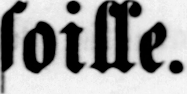soille.
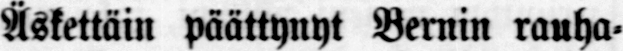Äskettäin päättynyt Bernin rauha-
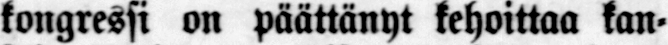kongressi on päättänyt kehoittaa kan-
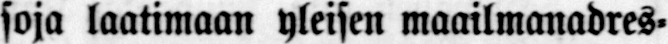soja laatimaan yleisen maailmanadres-
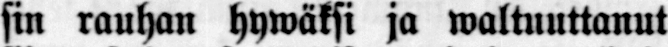sin rauhan hywäksi ja waltuuttanut
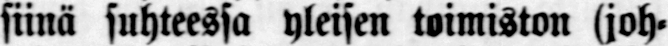siinä suhteessa yleisen toimiston (joh-
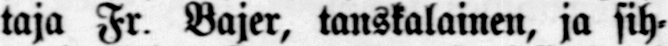taja Fr. Bajer, tanskalainen, ja sih-
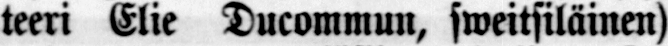teeri Elie Ducommun, sweitsiläinen)
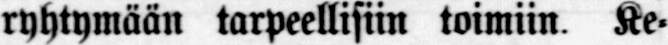ryhtymään tarpeellisiin toimiin. Ke-
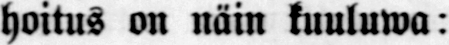hoitus on näin kuuluwa:
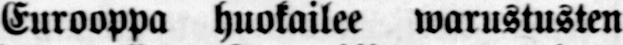Eurooppa huokailee warustusten
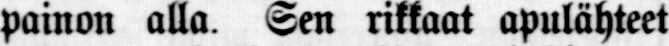painon alla. Sen rikkaat apulähteet
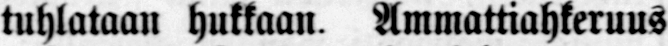tuhlataan hukkaan. Ammattiahkeruus
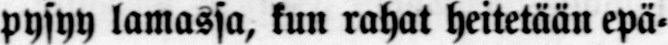pysyy lamassa, kun rahat heitetään epä-
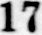17
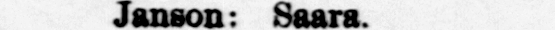Janson: Saara.
